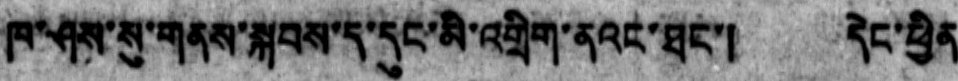ཁ་ཤས་སུ་གནས་སྐབས་ད་དུང་མི་འགྲིག་ནའང་ཐང་།   དེང་ཕྱིན
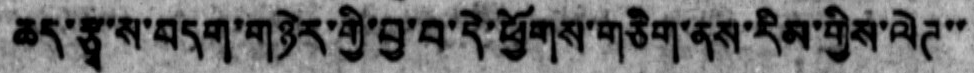ཆད་རྩྭ་ས་བདག་གཉེར་གྱི་བྱ་བ་དེ་ཕྱོགས་གཅིག་ནས་རིམ་གྱིས་ལེཊ་་
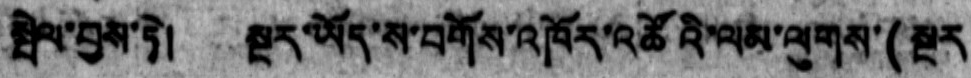སྦེལ་བྱས་ཏེ། སྔར་ཡོད་ས་བགོས་འཁོར་འཚོའི་ལམ་ལུགས་(སྔར
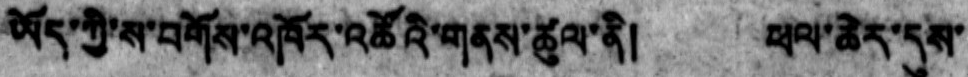ཡོད་ཀྱི་ས་བགོས་འཁོར་འཚོའི་གནས་ཚུལ་ནི། ཕལ་ཆེར་དུས་
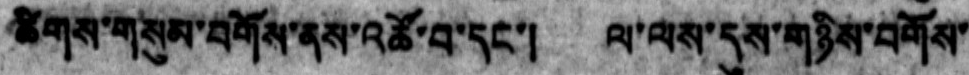ཚིགས་གསུམ་བགོས་ནས་འཚོ་བ་དང་།  ལ་ལས་དུས་གཉིས་བགོས་
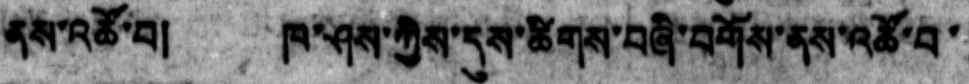ནས་འཚོ་བ། ཁ་ཤས་ཀྱིས་དུས་ཚིགས་བཞི་བགོས་ནས་འཚོ་བ་
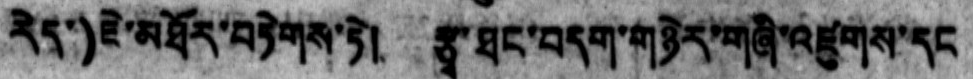རེད་) ཇེ་མཐོར་བཏེགས་ཏེ། རྩྭ་ཐང་བདག་གཉེར་གཞི་འཛུགས་དང
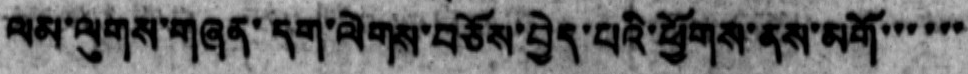ལམ་ལུགས་གཞན་དག་ལེགས་བཅོས་བྱེད་པའི་ཕྱོགས་ནས་མགོ་་་་་་
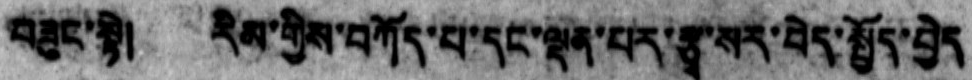བཟུང་སྟེ། རིམ་གྱིས་བཀོད་པ་དང་ལྡན་པར་རྩྭ་སར་བེད་སྤྱོད་བྱེད
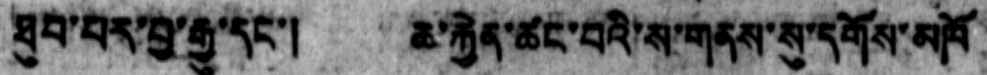ཐུབ་པར་བྱ་རྒྱུ་དང་། ཆ་རྐྱེན་ཚང་བའི་ས་གནས་སུ་དགོས་མཁོ
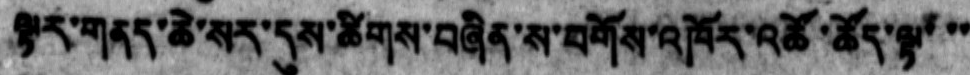ལྟར་གནད་ཆེ་སར་དུས་ཚིགས་བཞིན་ས་བགོས་འཁོར་འཚོ་ཚོད་སྟ་་་
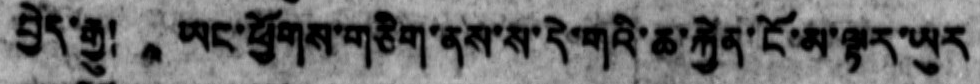བྱེད་རྒྱུ། ཡང་ཕྱོགས་གཅིག་ནས་ས་དེ་གའི་ཆ་རྐྱེན་ངོ་མ་ལྟར་ཡུར
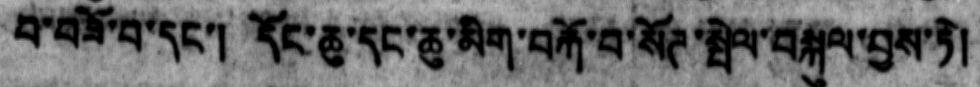པ་བཟོ་བ་དང་། དོང་ཆུ་དང་ཆུ་མིག་བརྐོ་བ་སོཊ་སྤེལ་བསྐུལ་བྱས་ཏེ།
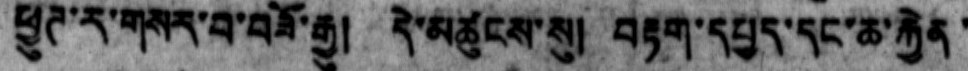ཕྱུཊ་ར་གསར་བ་བཟོ་རྒྱུ།   དེ་མཚུངས་སུ།  བརྟག་དཔྱད་དང་ཆ་རྐྱེན་
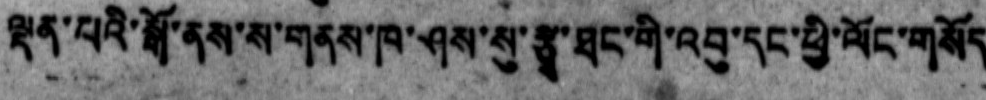ལྡན་པའི་སྒོ་ནས་ས་གནས་ཁ་ཤས་སུ་རྕྭ་ཐང་གི་འབུ་དང་ཕྱི་ལོང་གསོད
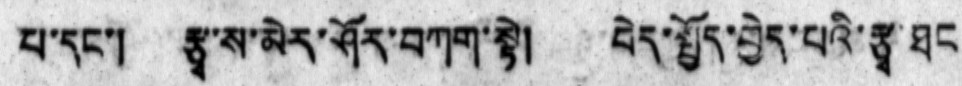པ་དང་། རྩྭ་ས་མེར་ཤོར་བཀག་སྟེ། བེད་སྤྱོད་བྱེད་པའི་རྩྭ་ཐང
